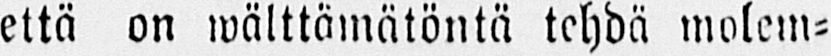että on wälttämätöntä tehdä molem-
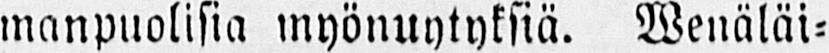manpuolisia myönuytyksiä. Wenäläi-
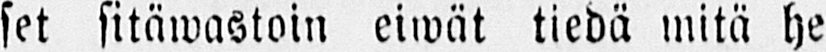set sitäwastoin eiwät tiedä mitä he
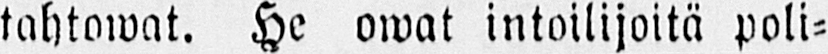tahtowat. He owat intoilijoitä poli-
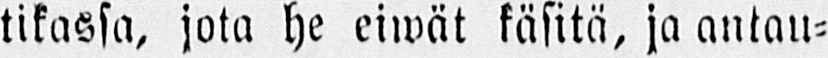tikassa, jota he eiwät käsitä, ja antau-
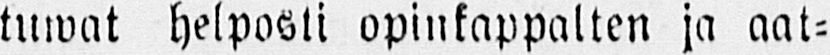tuwat helposti opinkappalten ja aat-
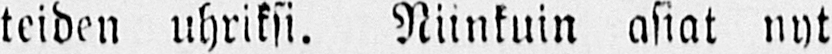teiden uhriksi. Niinkuin asiat nyt
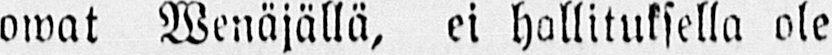owat Wenäjällä, ei hallituksella ole
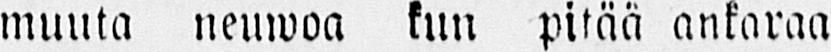muuta neuwoa kun pitää ankaraa
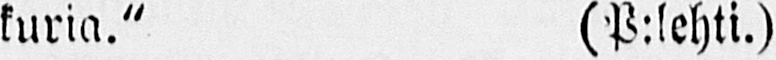kuria." (P:lehti.)
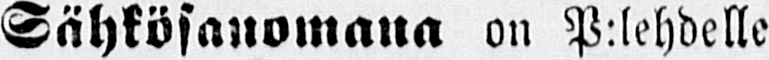Sähkösanomana on P:lehdelle
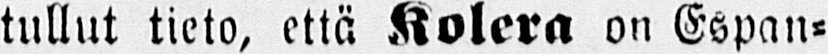tullut tieto, että Kolera on Espan-
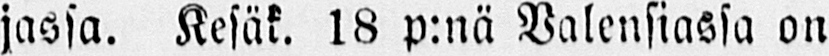jassa. Kesäk. 18 p:nä Valensiassa on
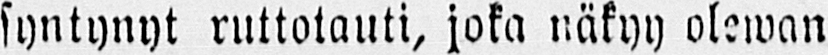syntynyt ruttotauti, joka näkyy olewan
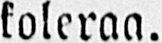koleraa.
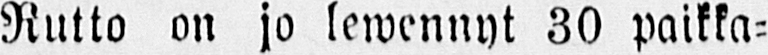Rutto on jo lewennyt 30 paikka-
